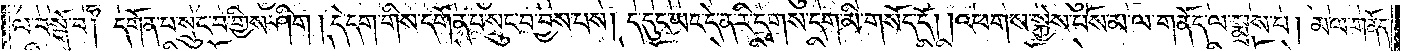ལ་བསྒོ་བ། དགོན་པ་སྲུང་བ་གྱིས་ཤིག །དེ་དག་གིས་དགོན་པ་སྲུང་བ་བྱས་པས། ད་དུང་ཡང་དེ་ན་རི་དྭགས་དག་མི་གསོད་དོ། །འཕགས་སྐྱེས་པོས་མ་ལ་གནོད་ལ་སྨྲས་པ། མལ་གནོད་
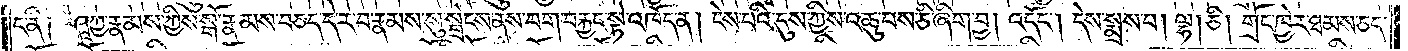ད་ནི། ཤཱཀྱ་རྣམས་ཀྱིས་སྒོ་རྣམས་བཅད་དེ་ར་བ་རྣམས་སུ་སྦྲེངས་ནས་བག་བརྐྱང་སྟེ་འཁོད་ན། ངེས་པའི་དུས་ཀྱིས་འཆུ་བས་ཅི་ཞིག་བྱ། འདོང༌། དེས་སྨྲས་པ། ལྷ། ཅི། གྲོང་ཁྱེར་ཐམས་ཅད་
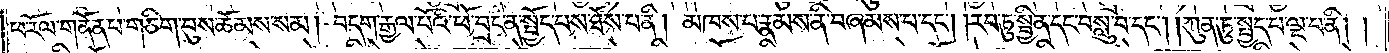ཕ་རོལ་གནོན་པ་གཅིག་བུས་ཆོམས་སམ། བདག་རྒྱལ་པོའི་ཕོ་བྲང་ན་སྤྱོད་པས་ཐོས་པ་ནི། མཁས་པ་རྣམས་ནི་བཞམས་པ་དང༌། །རབ་ཏུ་སྦྱིན་དང་བསླུ་བ་དང༌། ཀུན་ཏུ་སྤྱད་པ་ལྔ་པ་ནི། །
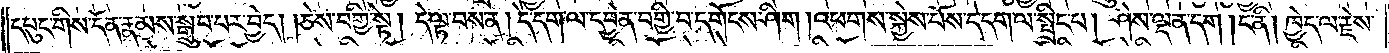དཔུང་གིས་དོན་རྣམས་སྒྲུབ་པར་བྱེད། །ཅེས་བགྱི་སྟེ། དེ་ལྟ་བས་ན། དེ་དག་ལ་དབྱེན་བགྱི་བ་དགོངས་ཤིག །འཕགས་སྐྱེས་པོས་དེ་དག་ལ་སྤྲིང་པ། ཤེས་ལྡན་དག །ང་ནི། ཁྱེད་ལ་རྗེས་
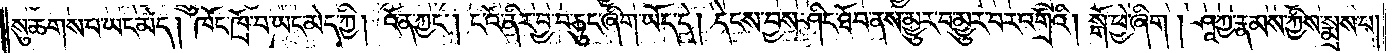སུ་ཆགས་པ་ཡང་མེད། ཁོང་ཁྲོ་བ་ཡང་མེད་ཀྱི། འོན་ཀྱང༌། ངའོ་ནིར་བྱ་བ་ཅུང་ཞིག་ཡོད་དེ། དེངས་བྱས་ཤིང་ཐོབ་ནས་མྱུར་བ་མྱུར་བར་འགྲོའི། །སྒོ་ཕྱེ་ཞིག །ཤཱཀྱ་རྣམས་ཀྱིས་སྨྲས་པ།
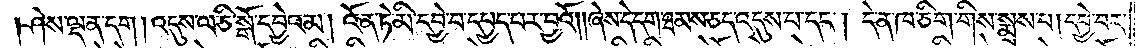ཤེས་ལྡན་དག། འདུས་ལ་ཅི་སྒོ་དབྱེའམ། འོན་ཏེ་མི་དབྱེ་བ་དཔྱད་པར་བྱའོ། །ཞེས་དེ་དག་ཐམས་ཅད་འདུས་པ་དང༌། དེ་ན་ཁ་ཅིག་གིས་སྨྲས་པ། དབྱེ་བར་
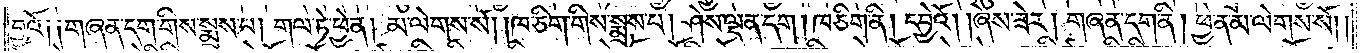བྱའོ༑ ༑གཞན་དག་གིས་སྨྲས་པ། གལ་ཏེ་ཕྱེ་ན། མ་ལེགས་སོ། །ཁ་ཅིག་གིས་སྨྲས་པ། ཤེས་ལྡན་དག །ཁ་ཅིག་ནི། དབྱེའོ། །ཞེས་ཟེར། གཞན་དག་ནི། ཕྱེ་ན་མ་ལེགས་སོ། །
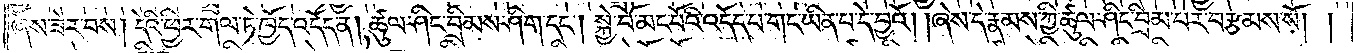ཞེས་ཟེར་བས། དེའི་ཕྱིར་གལ་ཏེ་ཁྱོད་འདོད་ན། ཚུལ་ཤིང་བྲིམས་ཤིག་དང༌། སྐྱེ་བོ་མང་པོའི་འདོད་པ་གང་ཡིན་པ་དེ་བྱའོ། །ཞེས་དེ་རྣམས་ཀྱི་ཚུལ་ཤིང་བྲིམ་པར་བརྩམས་སོ། །
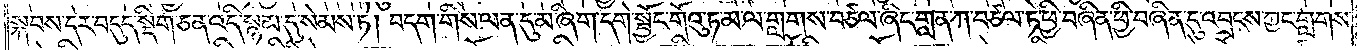སྐབས་དེར་བདུད་སྡིག་ཅན་འདི་སྙམ་དུ་སེམས་ཏེ། བདག་གིས་ལན་དུ་མ་ཞིག་དགེ་སྦྱོང་གོའུ་ཏ་མ་ལ་གླགས་བཙལ་ཞིང་གླན་ཀ་བཙལ་ཏེ་ཕྱི་བཞིན་ཕྱི་བཞིན་དུ་འབྲངས་ཀྱང་གླགས་
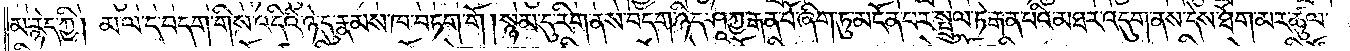མ་རྙེད་ཀྱི། མ་ལ་ད་བདག་གིས་འདིའི་ཉེ་དུ་རྣམས་ཁ་བཏག་གོ །སྙམ་དུ་རིག་ནས་བདག་ཉིད་ཤཱཀྱ་རྒན་པོ་ཞིག་ཏུ་མངོན་པར་སྤྲུལ་ཏེ་རྒན་པའི་མཐར་འདུག་ནས་དེས་ཐོག་མར་ཚུལ་
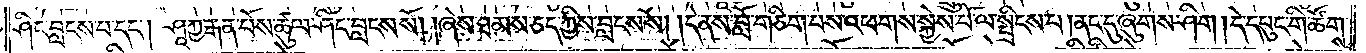ཤིང་བླངས་པ་དང༌། ཤཱཀྱ་རྒན་པོས་ཚུལ་ཤིང་བླངས་སོ། །ཞེས་ཐམས་ཅད་ཀྱིས་བླངས་སོ། །དེ་ནས་བློ་གཅིག་པས་འཕགས་སྐྱེས་པོ་ལ་སྤྲིངས་པ་།ནང་དུ་ཞུགས་ཤིག །དེ་དཔུང་གི་ཚོགས་
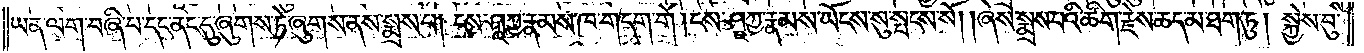ཡན་ལག་བཞི་པ་དང་ནང་དུ་ཞུགས་ཏེ་ཞུགས་ནས་སྨྲས་པ། ངས་ཤཱཀྱ་རྣམས་ཁ་གདག་གོ །ངས་ཤཱཀྱ་རྣམས་ཡོངས་སུ་སྤངས་སོ། །ཞེས་སྨྲས་པའི་ཚིག་རྗེས་ཆད་མ་ཐག་ཏུ། སྐྱེས་བུ་
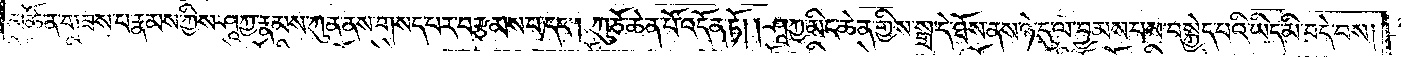མཚོན་གཟས་པ་རྣམས་ཀྱིས་ཤཱཀྱ་རྣམས་ཀུན་ནས་གསད་པར་བརྩམས་པ་དང༌། ཀུ་ཅོ་ཆེན་པོ་འདོན་ཏོ། །ཤཱཀྱ་མིང་ཆེན་གྱིས་སྒྲ་དེ་ཐོས་ནས་ཉེ་དུ་ལ་བྱམས་པས་བསྐྱེད་པའི་ཡིད་མི་བདེ་བས།
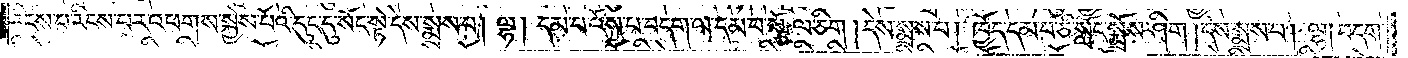རིངས་པ་རིངས་པར་འཕགས་སྐྱེས་པོའི་དུང་དུ་སོང་སྟེ་དེས་སྨྲས་པ། ལྷ། དམ་པ་འོས་པ་བདག་ལ་དམ་པ་སྩོལ་ཅིག །དེས་སྨྲས་པ། ཁྱོད་དམ་པ་ཅི་སློང་སྨྲོས་ཤིག །དེས་སྨྲས་པ། ལྷ། བདག་
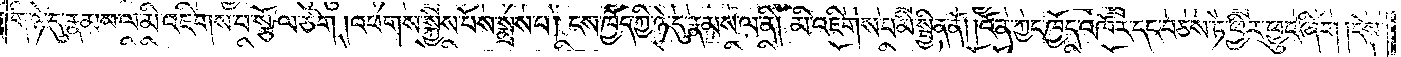གི་ཉེ་དུ་རྣམས་ལ་མི་འཇིགས་པ་སྩོལ་ཅིག །འཕགས་སྐྱེས་པོས་སྨྲས་པ། ངས་ཁྱོད་ཀྱི་ཉེ་དུ་རྣམས་ལ་ནི། མི་འཇིགས་པ་མི་སྦྱིན་ནོ། །འོན་ཀྱང་ཁྱོད་འཁོར་དང་བཅས་ཏེ་ཕྱིར་ཕྱུང་ཞིག །དེས་
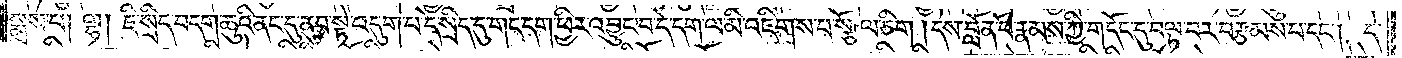སྨྲས་པ། ལྷ། ཇི་སྲིད་བདག་ཆུའི་ནང་དུ་ནུབ་སྟེ་འདུག་པ་དེ་སྲིད་དུ་གང་དག་ཕྱིར་འབྱུང་བ་དེ་དག་ལ་མི་འཇིགས་པ་སྩོལ་ཅིག །དེས་བློན་པོ་རྣམས་ཀྱི་གདོང་དུ་བལྟ་བར་བརྩམས་པ་དང༌། དེ་
